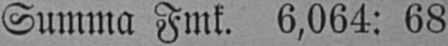Summa Fmk. 6,064: 68
